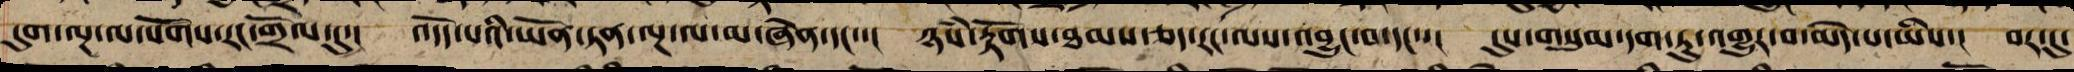དུག་ལྔ་ལ་སོགས་རང་གྲོལ་དུ་། འདོད་པའི་ཡོན་ཏན་ལྔ་ལ་མ་ཞེན་དང་་། ཉཾས་རྟོགས་ཐམས་ཅད་རང་ལས་འབྱུང་བ་དང་་། དུས་གསུམ་དག་ཏུ་འགྱུར་བ་མེད་པ་ཡིས་། བར་དུ་
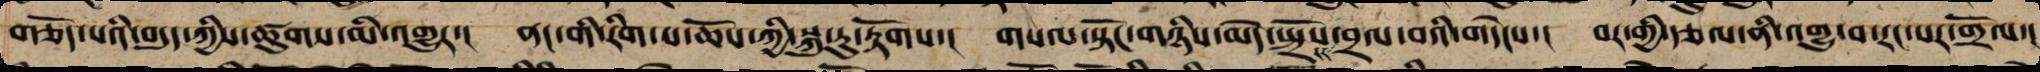གཅོད་པའི་བདུད་ཀྱིས་ཚུགས་མི་འགྱུར་། ནང་གི་རིག་པ་ཆོས་ཀྱི་སྐུ་རུ་རྟོགས་། གསལ་སྟོང་གཉིས་མེད་སྤྲོས་བྲལ་བའི་གདེངས་། བར་གྱི་རྩལ་ནི་འགྱུ་བ་རང་སར་གྲོལ་།
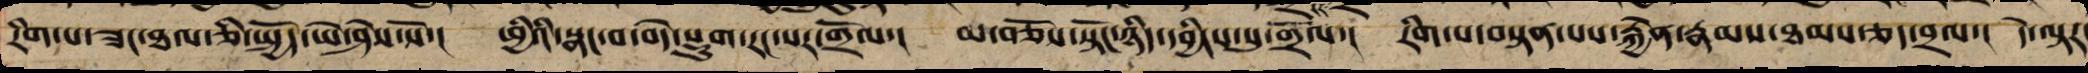རིག་པ་ཟང་ཐལ་ཅི་སྤྱོད་ཡེ་ཤེས་སོ་། ཕྱིའི་སྣང་བ་བདེ་སྡུག་རང་སར་གྲོལ་། མ་བཅོས་སྟོང་ཉིད་དབྱིངས་སུ་གྲོལ་། རིག་པ་བསྟན་པས་རྐྱེན་རྣམས་ཐམས་ཅད་བྲལ་། དེ་ལྟར་
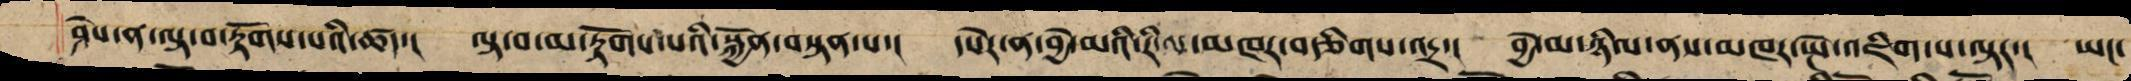ཤེས་ན་ལྟ་བ་རྟོགས་པའི་ཚད་། ལྟ་བ་མ་རྟོགས་པའི་སྐྱོན་བསྟན་པ་། དཔེར་ན་བྱེ་མའི་རི་ལ་མཁར་བརྩིག་འདྲ་། བྱེ་མ་ཉིལ་ནས་མཁར་སྤེ་འཇིག་པ་ལྟར་། ཡང་
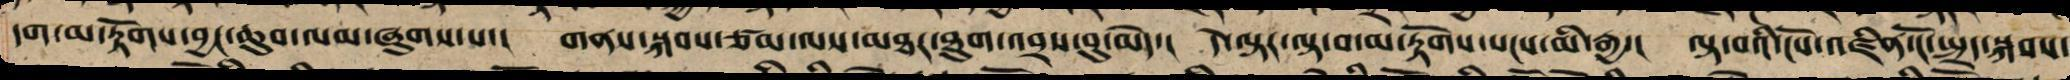དག་མ་རྟོགས་བྱང་ཆུབ་ལམ་ཞུགས་པ་། གནས་སྐབས་ཙམ་ལས་མཐར་ཐུག་འབྲས་བུ་མེད་། དེ་ལྟར་ལྟ་བ་མ་རྟོགས་སངས་མི་རྒྱ་། ལྟ་བའི་ངོས་འཛིན་ངོ་སྤྲོད་སྐབས་
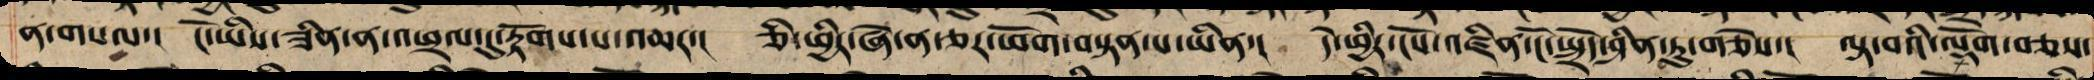ན་གསལ་། ངོ་ཡིས་ཟིན་ན་འཕྲལ་དུ་རྟོགས་པ་འཆར་། ཅི་ཕྱིར་ཞེ་ན་ཅར་ཕོག་བསྟན་པ་ཡིན་། དེ་ཕྱིར་ངོས་འཛིན་ངོ་སྤྲོད་ཤིན་ཏུ་གཅེས་། ལྟ་བའི་ལྡོག་བཅས་
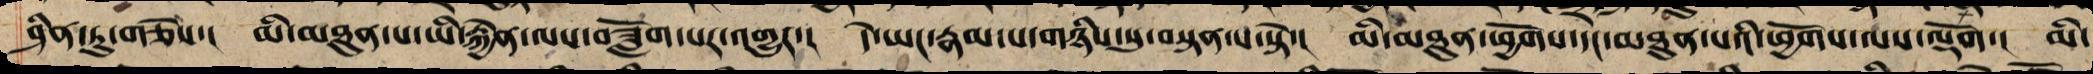ཤིན་ཏུ་གཅེས་། མི་མཐུན་པ་ཡི་རྐྱེན་ལས་བཟློག་པར་འགྱུར་། དེ་ཡང་རྣམ་པ་གཉིས་སུ་བསྟན་པ་སྟེ་། མི་མཐུན་ཕྱོགས་དང་མཐུན་པའི་ཕྱོགས་ལས་ལྡོག་། མི་
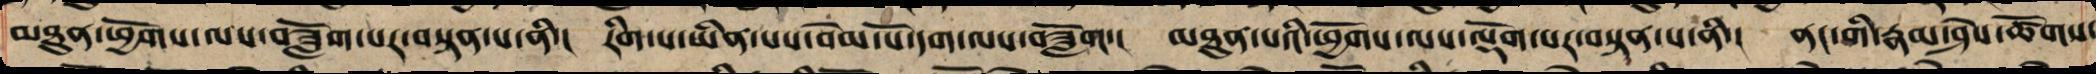མཐུན་ཕྱོགས་ལས་བཟློག་པར་བསྟན་པ་ནི་། རིག་པ་ཡིན་པས་བེམ་པོ་དག་ལས་བཟློག་། མཐུན་པའི་ཕྱོགས་ལས་ལྡོག་པར་བསྟན་པ་ནི་། ནང་གི་རྣམ་ཤེས་ཚོགས་
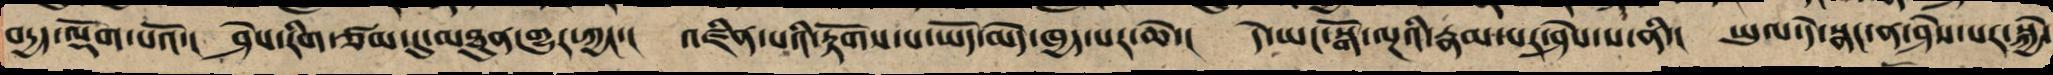བདྱད་ལྡོག་པའོ་། ཤེས་རིག་ཙམ་དུ་མཐུན་གྱུར་ཀྱང་། འཛིན་པའི་རྟོགས་པ་ཡོད་མེད་ཁྱད་པར་ཆེ་། དེ་ཡང་སྒོ་ལྔའི་རྣམ་པར་ཤེས་པ་ནི་། ཡུལ་དེ་སྣང་བས་ཤེས་པར་སྐྱེ་
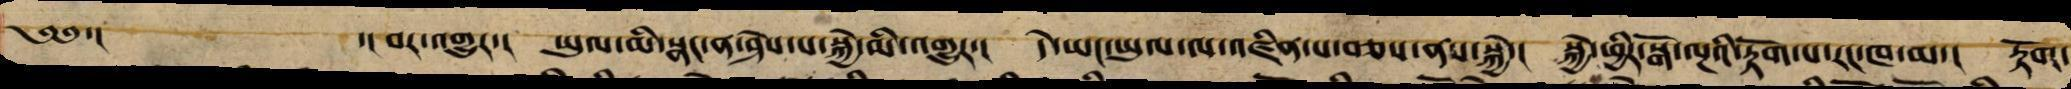༄༅་། ་། བར་འགྱུར་། ཡུལ་མི་སྣང་ན་ཤེས་པ་སྐྱེ་མི་འགྱུར་། དེ་ཡང་ཡུལ་ལ་འཛིན་པ་བཅས་ནས་སྐྱེ་། སྐྱེ་ཕྱིར་སྒོ་ལྔའི་རྟོགས་པ་རང་ཁ་མ་། རྟོག་
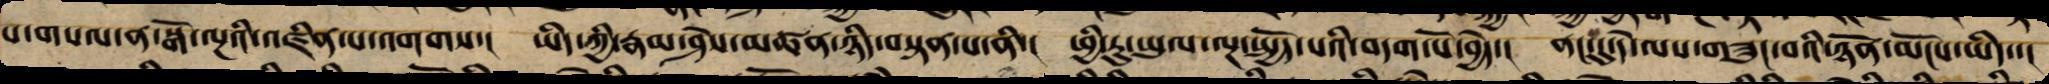པ་གསལ་ན་སྒོ་ལྔའི་འཛིན་པ་འགགས་། ཡིད་ཀྱི་རྣམ་ཤེས་མཚན་ཉིད་བསྟན་པ་ནི་། ཕྱི་རུ་ཡུལ་ལྔ་སྤྱོད་པའི་བདག་པོ་བྱེད་། ནང་དུ་དེ་ལས་བཟུང་བའི་ཉོན་མོངས་ཡིད་་།
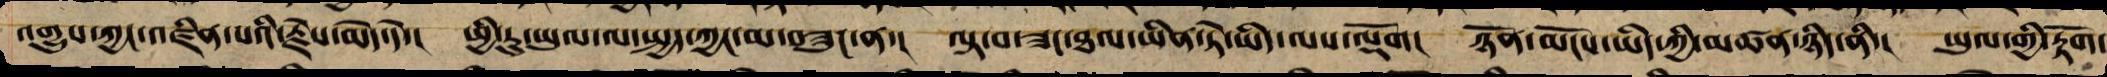འགྱུས་ཀྱང་འཛིན་པའི་རྗེས་མེད་དེ་། ཕྱི་རུ་ཡུལ་ལ་སྤྱད་ཀྱང་མ་བཟུང་ན་། ལྟ་བ་ཟང་ཐལ་ཡིན་ཏེ་ཡིད་ལས་ལྡོག། ཉོན་མོངས་ཡིད་ཀྱི་མཚན་ཉིད་ནི་། ཡུལ་གྱི་རྟོག་
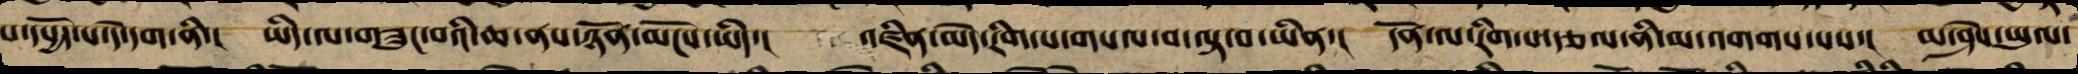པ་དཔྱོད་པ་དེ་དག་ནི་། ཡིད་ལ་གཟུང་བའི་ཆ་ནས་ཉོན་མོངས་ཡིད་། འཛིན་མེད་རིག་པ་གསལ་བ་ལྟ་བ་ཡིན་། དོན་ལ་རིག་པའི་རྩལ་ནི་མ་འགགས་པས་། མ་ཤེས་ཡུལ་
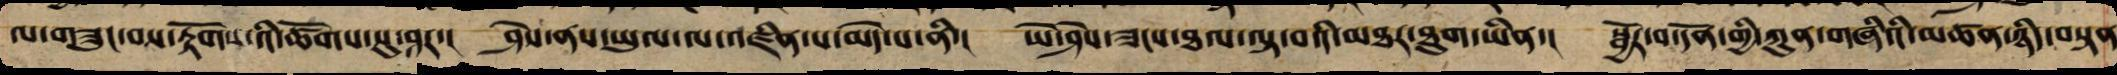ལ་གཟུང་བས་རྟོགས་འི་ཚོགས་སུ་ཤར་། ཤེས་ནས་ཡུལ་ལ་འཛིན་པ་མེད་པ་ནི་། ཡེ་ཤེས་ཟངས་ཐལ་ལྟ་བའི་མཐར་ཐུག་ཡིན་། སྦྱོར་བ་དོན་གྱི་ཀུན་གཞིའི་མཚན་ཉིད་བསྟན
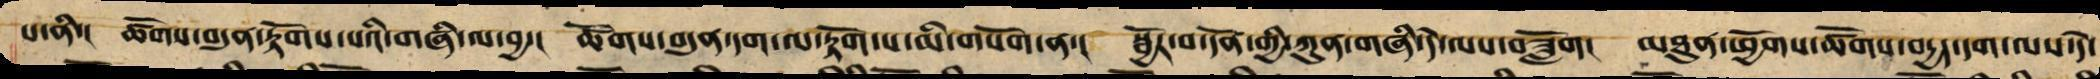པ་ནི་། ཚོགས་བདུན་རྟོག་པའི་གཞི་ལ་བྱ་། ཚོགས་བདུན་དག་ལ་རྟོག་པ་མི་གསོག་ན་། སྦྱོར་བ་དོན་གྱི་ཀུན་གཞི་དེ་ལས་བཟློག། མཐུན་ཕྱོགས་ཚོགས་བདྱད་དག་ལས་དེ་
